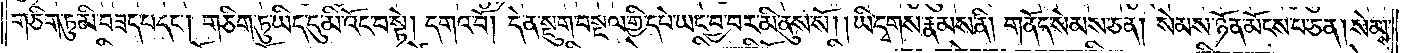གཅིག་ཏུ་མི་བཟད་པ་དང༌། གཅིག་ཏུ་ཡིད་དུ་མི་འོང་བ་སྟེ། དགའ་བོ། དེ་ན་སྡུག་བསྔལ་གྱི་དཔེ་ཡང་བྱ་བར་མི་ནུས་སོ། །ཡི་དྭགས་རྣམས་ནི། གནོད་སེམས་ཅན། སེམས་ཉོན་མོངས་པ་ཅན། སེམས་
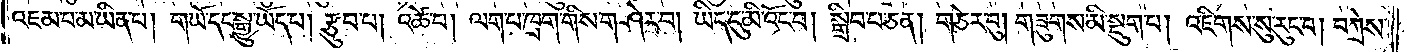འཇམ་པ་མ་ཡིན་པ། གཡོ་དང་སྒྱུ་ཡོད་པ། རྩུབ་པ། འཚེ་བ། ལག་པ་ཁྲག་གིས་གཤེར་བ། ཡིད་དུ་མི་འོང་བ། སྒྲིབ་པ་ཅན། གཅེར་བུ། གཟུགས་མི་སྡུག་པ། འཇིགས་སུ་རུང་བ། བཀྲེས་
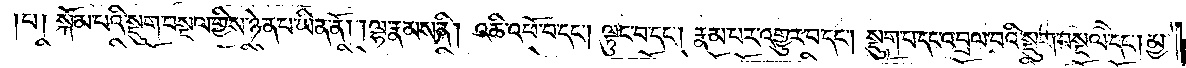པ། སྐོམ་པའི་སྡུག་བསྔལ་གྱིས་ཉེན་པ་ཡིན་ནོ། །ལྷ་རྣམས་ནི། འཆི་འཕོ་བ་དང༌། ལྟུང་བ་དང༌། རྣམ་པར་འགྱུར་བ་དང༌། སྡུག་པ་དང་འབྲལ་བའི་སྡུག་བསྔལ་དང༌། མྱ་
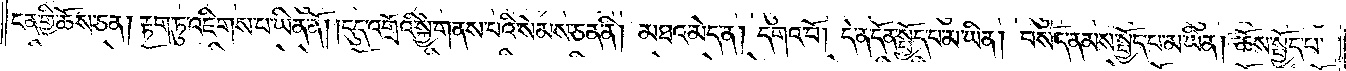ངན་གྱི་ཆོས་ཅན། རྟག་ཏུ་འཇིགས་པ་ཡིན་ནོ། །དུད་འགྲོའི་སྐྱེ་གནས་པའི་སེམས་ཅན་ནི། མཐའ་མེད་ན། དགའ་བོ། དེ་ན་དོན་སྤྱོད་པ་མ་ཡིན། བསོད་ནམས་སྤྱོད་པ་མ་ཡིན། ཆོས་སྤྱོད་པ་
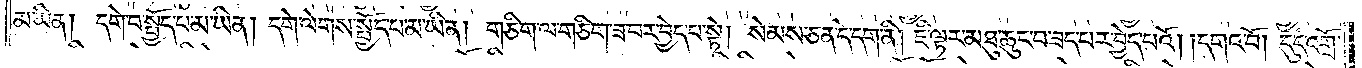མ་ཡིན། དགེ་བ་སྤྱོད་པ་མ་ཡིན། དགེ་ལེགས་སྤྱོད་པ་མ་ཡིན། གཅིག་ལ་གཅིག་ཟ་བར་བྱེད་པ་སྟེ། སེམས་ཅན་དེ་དག་ནི། ཇི་ལྟར་མཐུ་ཆུང་བ་ཟད་པར་བྱེད་པའོ། །དགའ་བོ། དུད་འགྲོ་
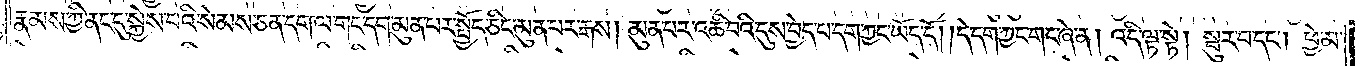རྣམས་ཀྱི་ནང་དུ་སྐྱེས་པའི་སེམས་ཅན་དག་ལ་གང་དག་མུན་པར་སྤྱོད་ཅིང་མུན་པར་རྒས། མུན་པར་འཆི་བའི་དུས་བྱེད་པ་དག་ཀྱང་ཡོད་དོ། །དེ་དག་ཀྱང་གང་ཞེ་ན། འདི་ལྟ་སྟེ། སྦུར་བ་དང༌། ཕྱེ་མ་
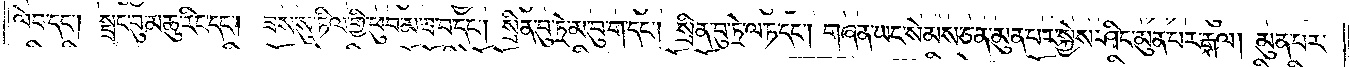ལེབ་དང༌། སྦྲང་བུ་མཆུ་རིང་དང༌། ཟས་སུ་ཏིལ་གྱི་ཕུབ་མ་ཟ་བ་དང༌། སྲིན་བུ་ཏྲེ་མ་བུ་ག་དང༌། སྲིན་བུ་ཏྲེ་ལ་ཏ་དང༌། གཞན་ཡང་སེམས་ཅན་མུན་པར་སྐྱེས་ཤིང་མུན་པར་རྒལ། མུན་པར་
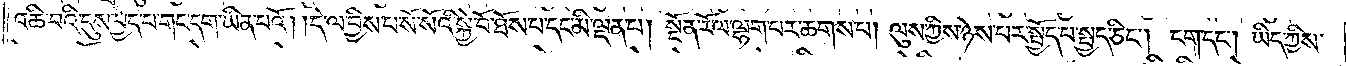འཆི་བའི་དུས་བྱེད་པ་གང་དག་ཡིན་པའོ། །དེ་ལ་བྱིས་པ་སོ་སོའི་སྐྱེ་བོ་ཐོས་པ་དང་མི་ལྡན་པ། སྔོན་རོལ་ལྷག་པར་ཆགས་པ། ལུས་ཀྱིས་ཉེས་པར་སྤྱོད་པ་སྤྱད་ཅིང༌། ངག་དང༌། ཡིད་ཀྱིས་
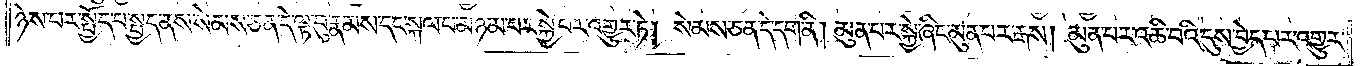ཉེས་པར་སྤྱོད་པ་སྤྱད་ནས་སེམས་ཅན་དེ་ལྟ་བུ་རྣམས་དང་སྐལ་པ་མཉམ་པར་སྐྱེ་བར་འགྱུར་ཏེ། སེམས་ཅན་དེ་དག་ནི། མུན་པར་སྐྱེ་ཞིང་མུན་པར་རྒས། མུན་པར་འཆི་བའི་དུས་བྱེད་པར་འགྱུར་
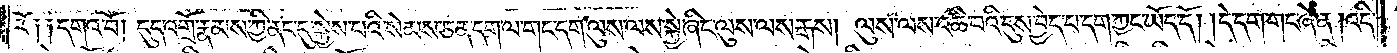རོ༑ ༑དགའ་བོ། དུད་འགྲོ་རྣམས་ཀྱི་ནང་དུ་སྐྱེས་པའི་སེམས་ཅན་དག་ལ་གང་དག་ལུས་ལས་སྐྱེ་ཞིང་ལུས་ལས་རྒས། ལུས་ལས་འཆི་བའི་དུས་བྱེད་པ་དག་ཀྱང་ཡོད་དོ། །དེ་དག་གང་ཞེ་ན་།འདི་
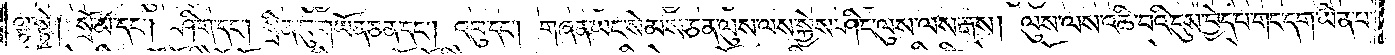ལྟ་སྟེ། སྲོ་མ་དང༌། ཤིག་དང༌། སྲིན་བུ་གཡོན་ཅན་དང༌། འབུ་དང༌། གཞན་ཡང་སེམས་ཅན་ལུས་ལས་སྐྱེས་ཤིང་ལུས་ལས་རྒས། ལུས་ལས་འཆི་བའི་དུས་བྱེད་པ་གང་དག་ཡིན་པ་
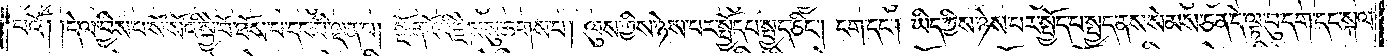པའོ། །དེ་ལ་བྱིས་པ་སོ་སོའི་སྐྱེ་བོ་ཐོས་པ་དང་མི་ལྡན་པ། སྔོན་རོའི་རྗེས་སུ་ཆགས་པ། ལུས་ཀྱིས་ཉེས་པར་སྤྱོད་པ་སྤྱད་ཅིང༌། ངག་དང༌། ཡིད་ཀྱིས་ཉེས་པར་སྤྱོད་པ་སྤྱད་ནས་སེམས་ཅན་དེ་ལྟ་བུ་དག་དང་སྐལ་
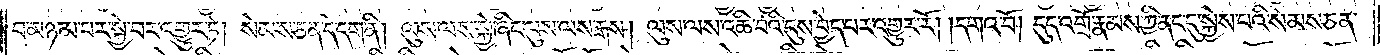པ་མཉམ་པར་སྐྱེ་བར་འགྱུར་ཏེ། སེམས་ཅན་དེ་དག་ནི། ལུས་ལས་སྐྱེ་ཞིང་ལུས་ལས་རྒས། ལུས་ལས་འཆི་བའི་དུས་བྱེད་པར་འགྱུར་རོ། །དགའ་བོ། དུད་འགྲོ་རྣམས་ཀྱི་ནང་དུ་སྐྱེས་པའི་སེམས་ཅན་
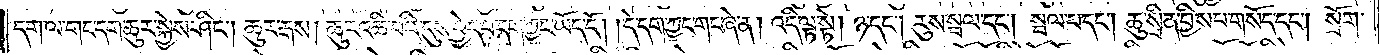དག་ལ་གང་དག་ཆུར་སྐྱེས་ཤིང༌། ཆུར་རྒས། ཆུར་འཆི་བའི་དུས་བྱེད་པ་དག་ཀྱང་ཡོད་དོ། །དེ་དག་ཀྱང་གང་ཞེ་ན། འདི་ལྟ་སྟེ། ཉ་དང༌། རུས་སྦལ་དང༌། སྦལ་པ་དང༌། ཆུ་སྲིན་བྱིས་པ་གསོད་དང༌། སྲོག་
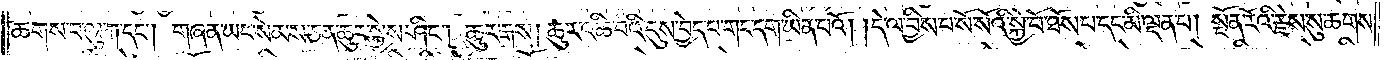ཆགས་བ་ལུ་ཀ་དང༌། གཞན་ཡང་སེམས་ཅན་ཆུར་སྐྱེས་ཤིང༌། ཆུར་རྒས། ཆུར་འཆི་བའི་དུས་བྱེད་པ་གང་དག་ཡིན་པའོ། །དེ་ལ་བྱིས་པ་སོ་སོའི་སྐྱེ་བོ་ཐོས་པ་དང་མི་ལྡན་པ། སྔོན་རོའི་རྗེས་སུ་ཆགས་
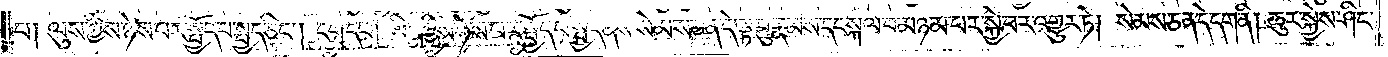པ། ལུས་ཀྱིས་ཉེས་པར་སྤྱོད་པ་སྤྱད་ཅིང༌། ངག་དང༌། ཡིད་ཀྱིས་ཉེས་པར་སྤྱོད་པ་སྤྱད་ནས་སེམས་ཅན་དེ་ལྟ་བུ་རྣམས་དང་སྐལ་པ་མཉམ་པར་སྐྱེ་བར་འགྱུར་ཏེ། སེམས་ཅན་དེ་དག་ནི། ཆུར་སྐྱེས་ཤིང་
